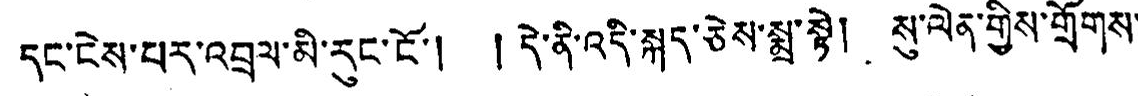དང་ངེས་པར་འབྲལ་མི་རང་ངོ་། ། དེ་ནི་འདི་སྐད་ཅེས་སྨྲ་སྟེ། སུ་ལེན་གྱིས་གྲོགས་
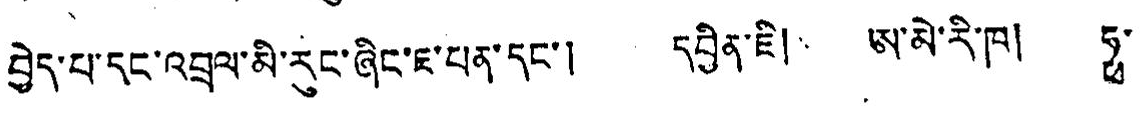བྱེད་པ་དང་འབྲལ་མི་རུང་ཞིང་ཇ་པན་དང་། དབྱིན་ཇི། ཨ་མེ་རི་ཁ། ཧྥ་
